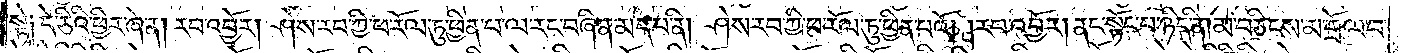སྟེ༑ དེ་ཅིའི་ཕྱིར་ཞེ་ན། རབ་འབྱོར། ཤེས་རབ་ཀྱི་ཕ་རོལ་ཏུ་ཕྱིན་པ་ལ་རང་བཞིན་མེད་པ་ནི། ཤེས་རབ་ཀྱི་ཕ་རོལ་ཏུ་ཕྱིན་པའོ། །རབ་འབྱོར། ནང་སྟོང་པ་ཉིད་ནི། མ་བཅིངས་མ་གྲོལ་བ་
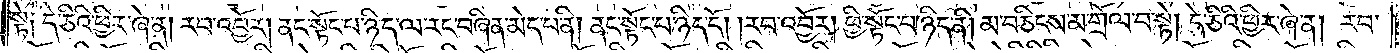སྟེ༑ དེ་ཅིའི་ཕྱིར་ཞེ་ན། རབ་འབྱོར། ནང་སྟོང་པ་ཉིད་ལ་རང་བཞིན་མེད་པ་ནི། ནང་སྟོང་པ་ཉིད་དོ། །རབ་འབྱོར། ཕྱི་སྟོང་པ་ཉིད་ནི། མ་བཅིངས་མ་གྲོལ་བ་སྟེ། དེ་ཅིའི་ཕྱིར་ཞེ་ན། རབ་
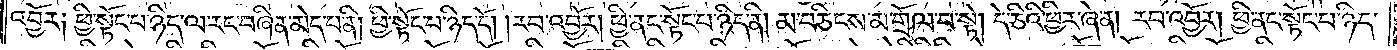འབྱོར༑ ཕྱི་སྟོང་པ་ཉིད་ལ་རང་བཞིན་མེད་པ་ནི། ཕྱི་སྟོང་པ་ཉིད་དོ། །རབ་འབྱོར། ཕྱི་ནང་སྟོང་པ་ཉིད་ནི། མ་བཅིངས་མ་གྲོལ་བ་སྟེ། དེ་ཅིའི་ཕྱིར་ཞེ་ན། རབ་འབྱོར། ཕྱི་ནང་སྟོང་པ་ཉིད་
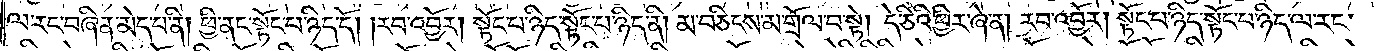ལ་རང་བཞིན་མེད་པ་ནི། ཕྱི་ནང་སྟོང་པ་ཉིད་དོ། །རབ་འབྱོར། སྟོང་པ་ཉིད་སྟོང་པ་ཉིད་ནི། མ་བཅིངས་མ་གྲོལ་བ་སྟེ། དེ་ཅིའི་ཕྱིར་ཞེ་ན། རབ་འབྱོར། སྟོང་པ་ཉིད་སྟོང་པ་ཉིད་ལ་རང་
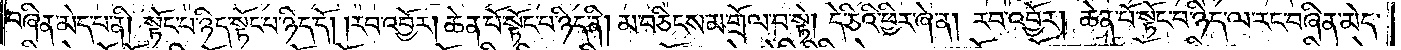བཞིན་མེད་པ་ནི། སྟོང་པ་ཉིད་སྟོང་པ་ཉིད་དོ། །རབ་འབྱོར། ཆེན་པོ་སྟོང་པ་ཉིད་ནི། མ་བཅིངས་མ་གྲོལ་བ་སྟེ། དེ་ཅིའི་ཕྱིར་ཞེ་ན། རབ་འབྱོར། ཆེན་པོ་སྟོང་པ་ཉིད་ལ་རང་བཞིན་མེད་
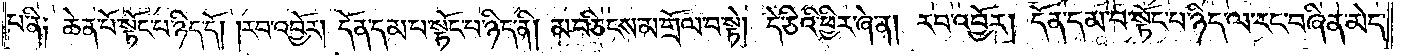པ་ནི༑ ཆེན་པོ་སྟོང་པ་ཉིད་དོ། །རབ་འབྱོར། དོན་དམ་པ་སྟོང་པ་ཉིད་ནི། མ་བཅིངས་མ་གྲོལ་བ་སྟེ། དེ་ཅིའི་ཕྱིར་ཞེ་ན། རབ་འབྱོར། དོན་དམ་པ་སྟོང་པ་ཉིད་ལ་རང་བཞིན་མེད་
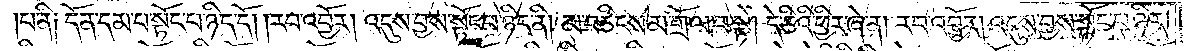པ་ནི༑ དོན་དམ་པ་སྟོང་པ་ཉིད་དོ། །རབ་འབྱོར། འདུས་བྱས་སྟོང་པ་ཉིད་ནི། མ་བཅིངས་མ་གྲོལ་བ་སྟེ། དེ་ཅིའི་ཕྱིར་ཞེ་ན། རབ་འབྱོར། འདུས་བྱས་སྟོང་པ་ཉིད་
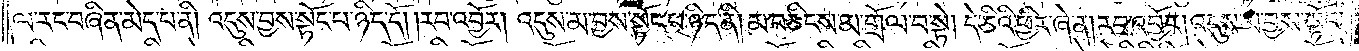ལ་རང་བཞིན་མེད་པ་ནི། འདུས་བྱས་སྟོང་པ་ཉིད་དོ། །རབ་འབྱོར། འདུས་མ་བྱས་སྟོང་པ་ཉིད་ནི། མ་བཅིངས་མ་གྲོལ་བ་སྟེ། དེ་ཅིའི་ཕྱིར་ཞེ་ན། རབ་འབྱོར། འདུས་མ་བྱས་སྟོང་
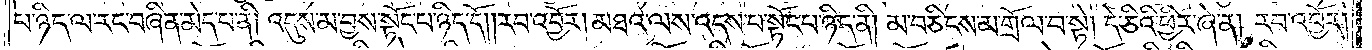པ་ཉིད་ལ་རང་བཞིན་མེད་པ་ནི། འདུས་མ་བྱས་སྟོང་པ་ཉིད་དོ། །རབ་འབྱོར། མཐའ་ལས་འདས་པ་སྟོང་པ་ཉིད་ནི། མ་བཅིངས་མ་གྲོལ་བ་སྟེ། དེ་ཅིའི་ཕྱིར་ཞེ་ན། རབ་འབྱོར།
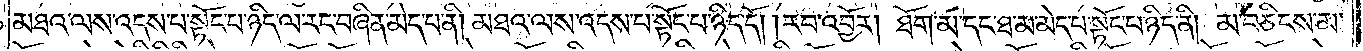མཐའ་ལས་འདས་པ་སྟོང་པ་ཉིད་ལ་རང་བཞིན་མེད་པ་ནི། མཐའ་ལས་འདས་པ་སྟོང་པ་ཉིད་དོ། །རབ་འབྱོར། ཐོག་མ་དང་ཐ་མ་མེད་པ་སྟོང་པ་ཉིད་ནི། མ་བཅིངས་མ་
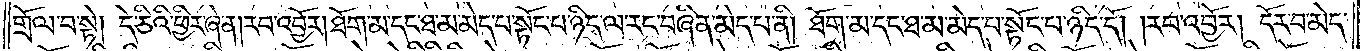གྲོལ་བ་སྟེ། དེ་ཅིའི་ཕྱིར་ཞེ་ན། རབ་འབྱོར། ཐོག་མ་དང་ཐ་མ་མེད་པ་སྟོང་པ་ཉིད་ལ་རང་བཞིན་མེད་པ་ནི། ཐོག་མ་དང་ཐ་མ་མེད་པ་སྟོང་པ་ཉིད་དོ། །རབ་འབྱོར། དོར་བ་མེད་
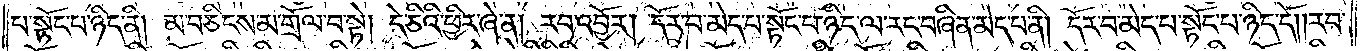པ་སྟོང་པ་ཉིད་ནི། མ་བཅིངས་མ་གྲོལ་བ་སྟེ། དེ་ཅིའི་ཕྱིར་ཞེ་ན། རབ་འབྱོར། དོར་བ་མེད་པ་སྟོང་པ་ཉིད་ལ་རང་བཞིན་མེད་པ་ནི། དོར་བ་མེད་པ་སྟོང་པ་ཉིད་དོ། །རབ་
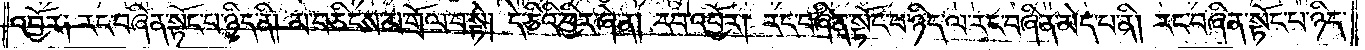འབྱོར༑ རང་བཞིན་སྟོང་པ་ཉིད་ནི། མ་བཅིངས་མ་གྲོལ་བ་སྟེ། དེ་ཅིའི་ཕྱིར་ཞེ་ན། རབ་འབྱོར། རང་བཞིན་སྟོང་པ་ཉིད་ལ་རང་བཞིན་མེད་པ་ནི། རང་བཞིན་སྟོང་པ་ཉིད་
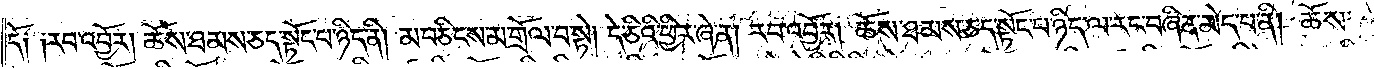དོ༑ ༑རབ་འབྱོར། ཆོས་ཐམས་ཅད་སྟོང་པ་ཉིད་ནི། མ་བཅིངས་མ་གྲོལ་བ་སྟེ། དེ་ཅིའི་ཕྱིར་ཞེ་ན། རབ་འབྱོར། ཆོས་ཐམས་ཅད་སྟོང་པ་ཉིད་ལ་རང་བཞིན་མེད་པ་ནི། ཆོས་
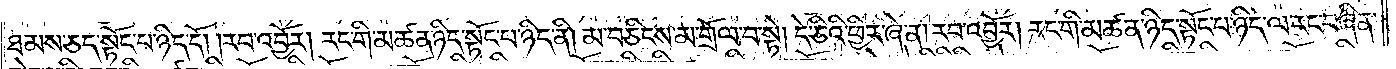ཐམས་ཅད་སྟོང་པ་ཉིད་དོ། །རབ་འབྱོར། རང་གི་མཚན་ཉིད་སྟོང་པ་ཉིད་ནི། མ་བཅིངས་མ་གྲོལ་བ་སྟེ། དེ་ཅིའི་ཕྱིར་ཞེ་ན། རབ་འབྱོར། རང་གི་མཚན་ཉིད་སྟོང་པ་ཉིད་ལ་རང་བཞིན་
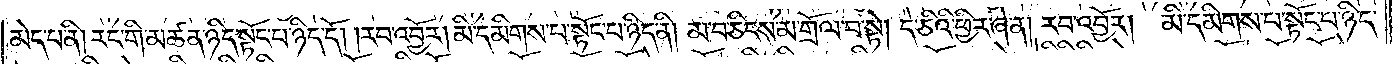མེད་པ་ནི། རང་གི་མཚན་ཉིད་སྟོང་པ་ཉིད་དོ། །རབ་འབྱོར། མི་དམིགས་པ་སྟོང་པ་ཉིད་ནི། མ་བཅིངས་མ་གྲོལ་བ་སྟེ། དེ་ཅིའི་ཕྱིར་ཞེ་ན། རབ་འབྱོར། མི་དམིགས་པ་སྟོང་པ་ཉིད་
